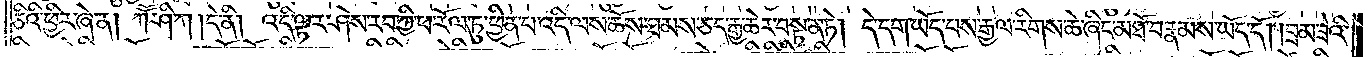ཅིའི་ཕྱིར་ཞེ་ན། ཀཽ་ཤི་ཀ །དེ་ནི། འདི་ལྟར་ཤེས་རབ་ཀྱི་ཕ་རོལ་ཏུ་ཕྱིན་པ་འདི་ལས་ཆོས་ཐམས་ཅད་རྒྱ་ཆེར་བསྟན་ཏེ། དེ་དག་ཡོད་པས་རྒྱལ་རིགས་ཆེ་ཞིང་མཐོ་བ་རྣམས་ཡོད་དོ། །བྲམ་ཟེའི་
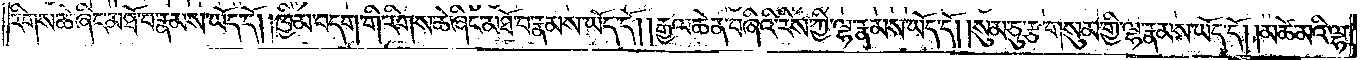རིགས་ཆེ་ཞིང་མཐོ་བ་རྣམས་ཡོད་དོ། །ཁྱིམ་བདག་གི་རིགས་ཆེ་ཞིང་མཐོ་བ་རྣམས་ཡོད་དོ། །རྒྱལ་ཆེན་བཞིའི་རིས་ཀྱི་ལྷ་རྣམས་ཡོད་དོ། །སུམ་ཅུ་རྩ་གསུམ་གྱི་ལྷ་རྣམས་ཡོད་དོ། །མཚེ་མའི་ལྷ་
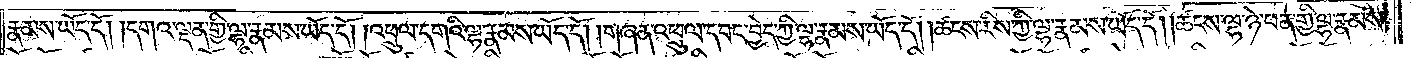རྣམས་ཡོད་དོ། །དགའ་ལྡན་གྱི་ལྷ་རྣམས་ཡོད་དོ། །འཕྲུལ་དགའི་ལྷ་རྣམས་ཡོད་དོ། །གཞན་འཕྲུལ་དབང་བྱེད་ཀྱི་ལྷ་རྣམས་ཡོད་དོ། །ཚངས་རིས་ཀྱི་ལྷ་རྣམས་ཡོད་དོ། །ཚངས་ལྷ་ཉེ་ཕན་གྱི་ལྷ་རྣམས་
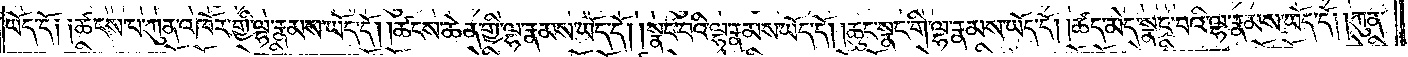ཡོད་དོ༑ ༑ཚངས་པ་ཀུན་འཁོར་གྱི་ལྷ་རྣམས་ཡོད་དོ། །ཚངས་ཆེན་གྱི་ལྷ་རྣམས་ཡོད་དོ། །སྣང་བའི་ལྷ་རྣམས་ཡོད་དོ། །ཆུང་སྣང་གི་ལྷ་རྣམས་ཡོད་དོ། །ཚད་མེད་སྣང་བའི་ལྷ་རྣམས་ཡོད་དོ། །ཀུན་
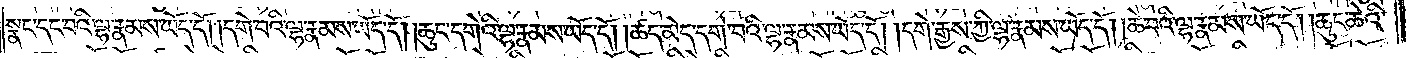སྣང་དང་པའི་ལྷ་རྣམས་ཡོད་དོ། །དགེ་བའི་ལྷ་རྣམས་ཡོད་དོ། །ཆུང་དགེའི་ལྷ་རྣམས་ཡོད་དོ། །ཚད་མེད་དགེ་བའི་ལྷ་རྣམས་ཡོད་དོ། །དགེ་རྒྱས་ཀྱི་ལྷ་རྣམས་ཡོད་དོ། །ཆེ་བའི་ལྷ་རྣམས་ཡོད་དོ། །ཆུང་ཆེའི་
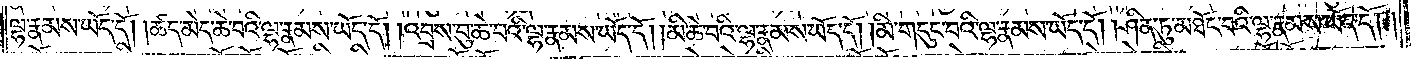ལྷ་རྣམས་ཡོད་དོ། །ཚད་མེད་ཆེ་བའི་ལྷ་རྣམས་ཡོད་དོ། །འབྲས་བུ་ཆེ་བའི་ལྷ་རྣམས་ཡོད་དོ། །མི་ཆེ་བའི་ལྷ་རྣམས་ཡོད་དོ། །མི་གདུང་བའི་ལྷ་རྣམས་ཡོད་དོ། །ཤིན་ཏུ་མཐོང་བའི་ལྷ་རྣམས་ཡོད་དོ། །
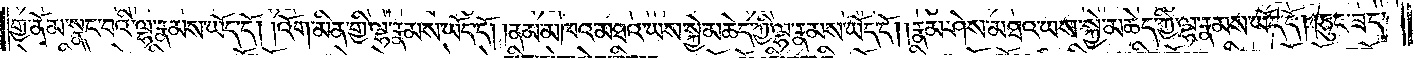གྱ་ནོམ་སྣང་བའི་ལྷ་རྣམས་ཡོད་དོ། །འོག་མིན་གྱི་ལྷ་རྣམས་ཡོད་དོ། །ནམ་མཁའ་མཐའ་ཡས་སྐྱེ་མཆེད་ཀྱི་ལྷ་རྣམས་ཡོད་དོ། །རྣམ་ཤེས་མཐའ་ཡས་སྐྱེ་མཆེད་ཀྱི་ལྷ་རྣམས་ཡོད་དོ། །ཅུང་ཟད་
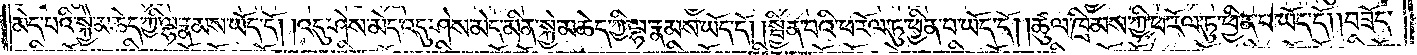མེད་པའི་སྐྱེ་མཆེད་ཀྱི་ལྷ་རྣམས་ཡོད་དོ། །འདུ་ཤེས་མེད་འདུ་ཤེས་མེད་མིན་སྐྱེ་མཆེད་ཀྱི་ལྷ་རྣམས་ཡོད་དོ། །སྦྱིན་པའི་ཕ་རོལ་ཏུ་ཕྱིན་པ་ཡོད་དོ། །ཚུལ་ཁྲིམས་ཀྱི་ཕ་རོལ་ཏུ་ཕྱིན་པ་ཡོད་དོ། །བཟོད་
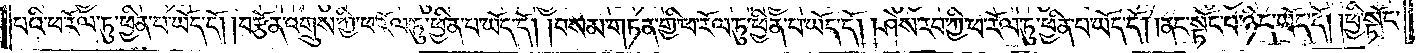པའི་ཕ་རོལ་ཏུ་ཕྱིན་པ་ཡོད་དོ། །བརྩོན་འགྲུས་ཀྱི་ཕ་རོལ་ཏུ་ཕྱིན་པ་ཡོད་དོ། །བསམ་གཏན་གྱི་ཕ་རོལ་ཏུ་ཕྱིན་པ་ཡོད་དོ། ། ཤེས་རབ་ཀྱི་ཕ་རོལ་ཏུ་ཕྱིན་པ་ཡོད་དོ། །ནང་སྟོང་པ་ཉིད་ཡོད་དོ། །ཕྱི་སྟོང་
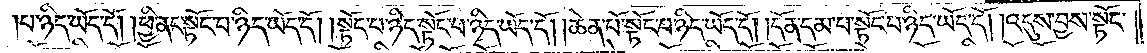པ་ཉིད་ཡོད་དོ། །ཕྱི་ནང་སྟོང་པ་ཉིད་ཡོད་དོ། །སྟོང་པ་ཉིད་སྟོང་པ་ཉིད་ཡོད་དོ། །ཆེན་པོ་སྟོང་པ་ཉིད་ཡོད་དོ། །དོན་དམ་པ་སྟོང་པ་ཉིད་ཡོད་དོ། །འདུས་བྱས་སྟོང་
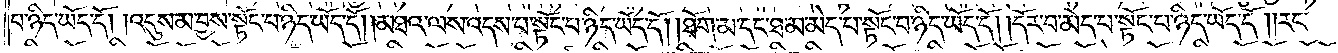པ་ཉིད་ཡོད་དོ། །འདུས་མ་བྱས་སྟོང་པ་ཉིད་ཡོད་དོ། །མཐའ་ལས་འདས་པ་སྟོང་པ་ཉིད་ཡོད་དོ། །ཐོག་མ་དང་ཐ་མ་མེད་པ་སྟོང་པ་ཉིད་ཡོད་དོ། །དོར་བ་མེད་པ་སྟོང་པ་ཉིད་ཡོད་དོ། །རང་
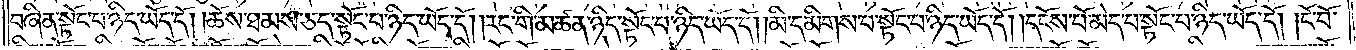བཞིན་སྟོང་པ་ཉིད་ཡོད་དོ། །ཆོས་ཐམས་ཅད་སྟོང་པ་ཉིད་ཡོད་དོ། །རང་གི་མཚན་ཉིད་སྟོང་པ་ཉིད་ཡོད་དོ། །མི་དམིགས་པ་སྟོང་པ་ཉིད་ཡོད་དོ། །དངོས་པོ་མེད་པ་སྟོང་པ་ཉིད་ཡོད་དོ། །ངོ་བོ་
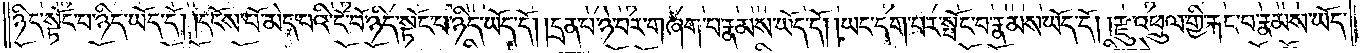ཉིད་སྟོང་པ་ཉིད་ཡོད་དོ། །དངོས་པོ་མེད་པའི་ངོ་བོ་ཉིད་སྟོང་པ་ཉིད་ཡོད་དོ། །དྲན་པ་ཉེ་བར་བཞག་པ་རྣམས་ཡོད་དོ། །ཡང་དག་པར་སྤོང་བ་རྣམས་ཡོད་དོ། །རྫུ་འཕྲུལ་གྱི་རྐང་པ་རྣམས་ཡོད་
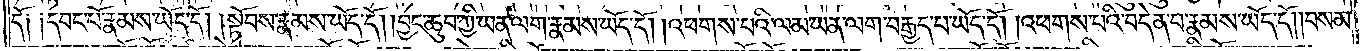དོ༑ ༑དབང་པོ་རྣམས་ཡོད་དོ། །སྟོབས་རྣམས་ཡོད་དོ། །བྱང་ཆུབ་ཀྱི་ཡན་ལག་རྣམས་ཡོད་དོ། །འཕགས་པའི་ལམ་ཡན་ལག་བརྒྱད་པ་ཡོད་དོ། །འཕགས་པའི་བདེན་པ་རྣམས་ཡོད་དོ། །བསམ་
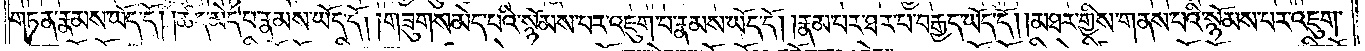གཏན་རྣམས་ཡོད་དོ། །ཚད་མེད་པ་རྣམས་ཡོད་དོ། །གཟུགས་མེད་པའི་སྙོམས་པར་འཇུག་པ་རྣམས་ཡོད་དོ། །རྣམ་པར་ཐར་པ་བརྒྱད་ཡོད་དོ། །མཐར་གྱིས་གནས་པའི་སྙོམས་པར་འཇུག་
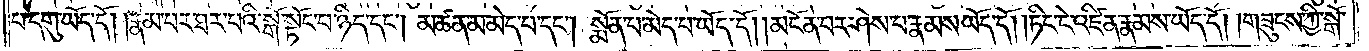པ་དགུ་ཡོད་དོ། །རྣམ་པར་ཐར་པའི་སྒོ་སྟོང་པ་ཉིད་དང༌། མཚན་མ་མེད་པ་དང༌། སྨོན་པ་མེད་པ་ཡོད་དོ། །མངོན་པར་ཤེས་པ་རྣམས་ཡོད་དོ། །ཏིང་ངེ་འཛིན་རྣམས་ཡོད་དོ། །གཟུངས་ཀྱི་སྒོ་
